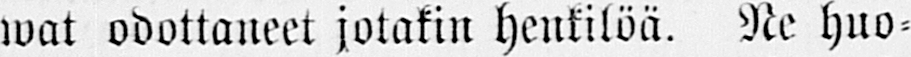wat odottaneet jotakin henkilöä. Ne huo-
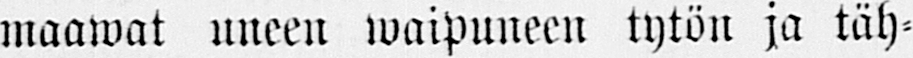maawat uneen waipuneen tytön ja täh-
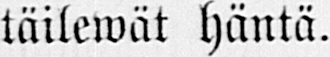täilewät häntä.
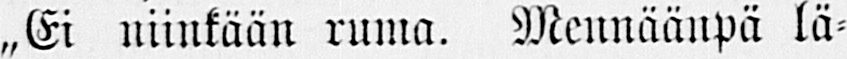„Ei niinkään ruma. Mennäänpä lä-
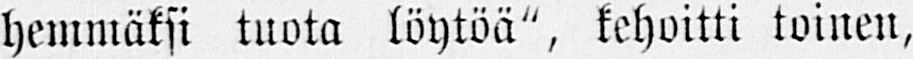hemmäksi tuota löytöä", kehoitti toinen,
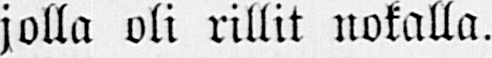jolla oli rillit nokalla.
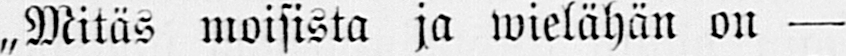„Mitäs moisista ja wielähän on —
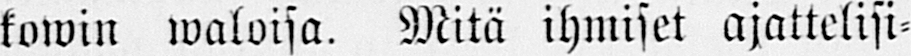kowin waloisa. Mitä ihmiset ajattelisi-
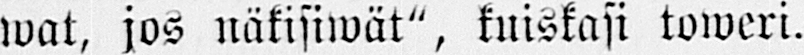wat, jos näkisiwät", kuiskasi toweri.
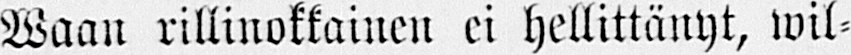Waan rillinokkainen ei hellittänyt, wil-
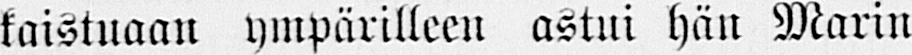kaistuaan ympärilleen astui hän Marin
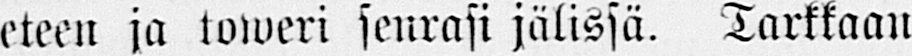eteen ja toweri seurasi jälissä. Tarkkaan
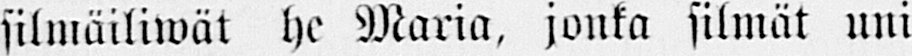silmäiliwät he Maria, jonka silmät uni
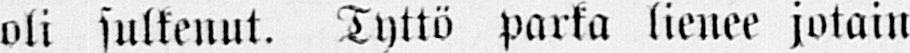oli sulkenut. Tyttö parka lienee jotain
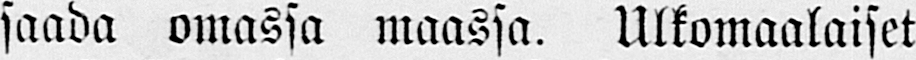saada omassa maassa. Ulkomaalaiset
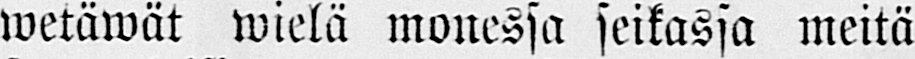wetäwät wielä monessa seikassa meitä
